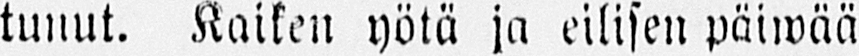tunut. Kaiken yötä ja eilisen päiwää
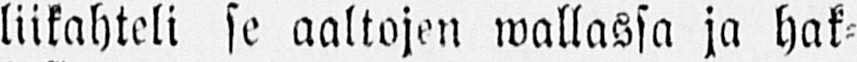liikahteli se aaltojen wallassa ja hak-
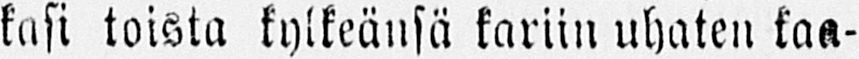kusi toista sylkeänsä kariin uhaten kaa-
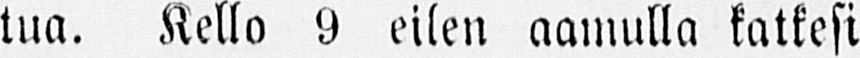tua. Kello 9 eilen aamulla katkesi
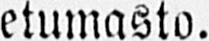etumasto.
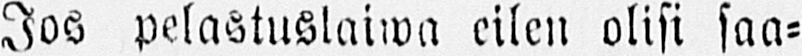Jos pelastuslaiwa eilen olisi saa-
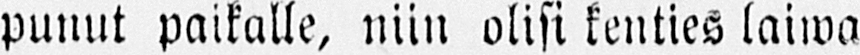punut paikalle, niin olisi kenties laiwa
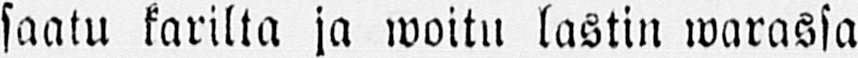saatu karilta ja woitu lastin warassa
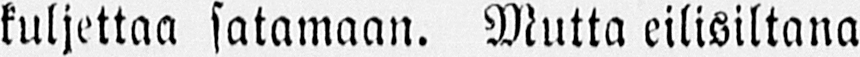kuljettaa satamaan. Mutta eilisiltana
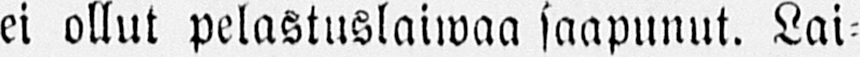ei ollut pelastuslaiwaa saapunut. Lai-
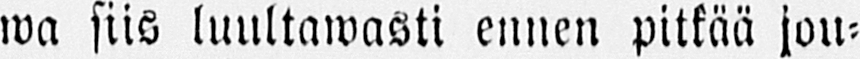wa siis luultawasti ennen pitkää jou-
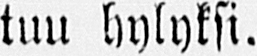tuu hylyksi.
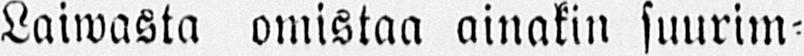Laiwasta omistaa ainakin suurim-
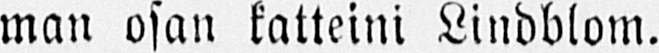man osan katteini Lindblom.
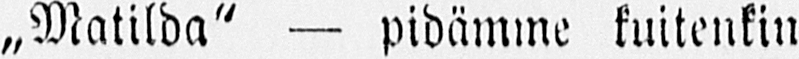„Matilda" — pidämme kuitenkin
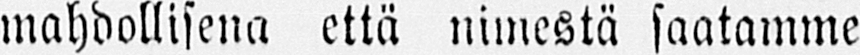mahdollisena että nimestä saatamme
